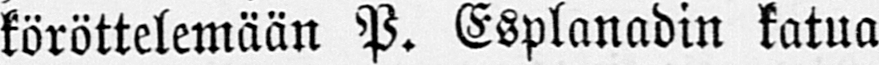köröttelemään P. Esplanadin katua
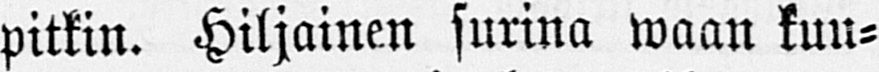pitkin. Hiljainen surina waan kuu-
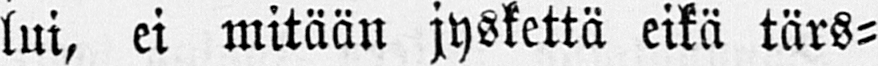lui, ei mitään jyskettä eikä tärs-
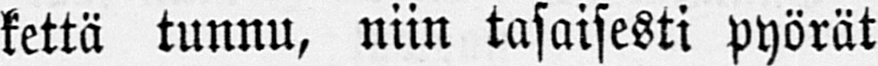kettä tunnu, niin tasaisesti pyörät
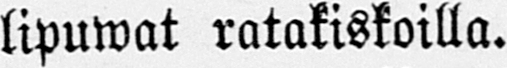lipuwat ratakiskoilla.
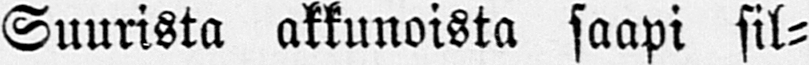Suurista akkunoista saapi sil-
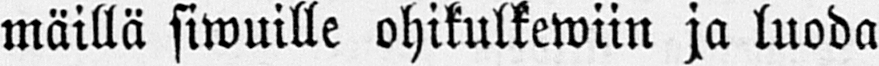mäillä siwuille ohikulkewiin ja luoda
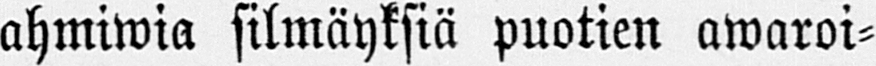ahmiwia silmäyksiä puotien awaroi-
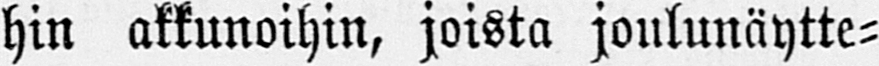hin akkunoihin, joista joulunäytte-
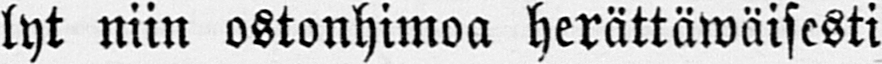lyt niin ostonhimoa herättäwäisesti
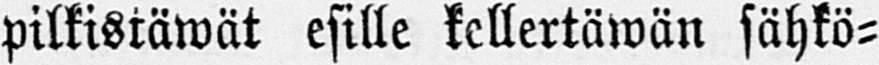pilkistäwät esille kellertäwän sähkö-
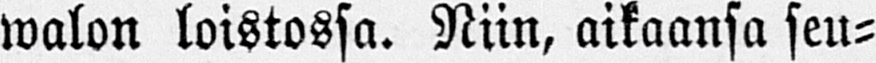walon loistossa. Niin, aikaansa seu-
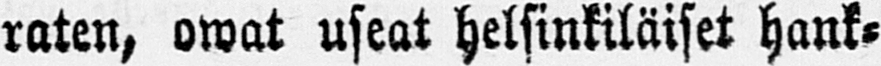raten, owat useat helsinkiläiset hank-
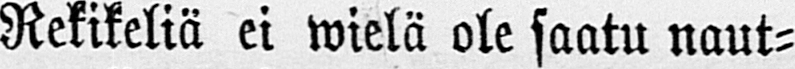Rekikeliä ei wielä ole saatu naut-
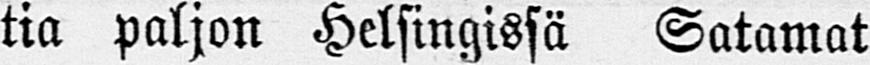tia paljon Helsingissä Satamat
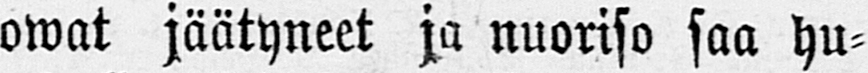owat jäätyneet ja nuoriso saa hu-
